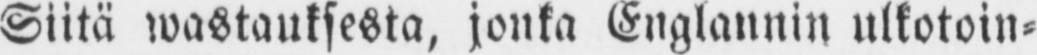Siitä wastauksesta, jonka Englannin ulkotoin-
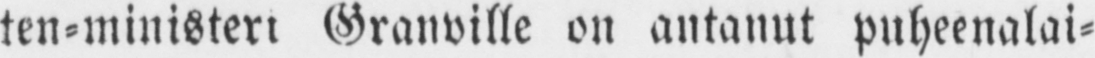ten-ministeri Granville on antanut puheenalai-
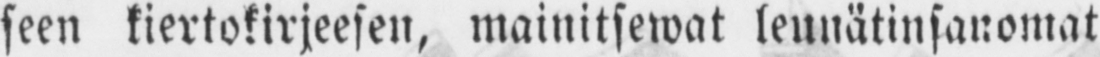seen kiertokirjeesen, mainitsewat lennätinsanomat
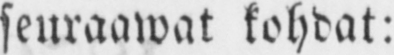seuraawat kohdat:
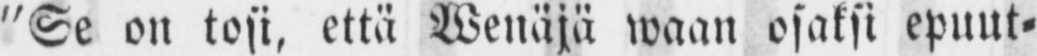"Se on tosi, että Wenäjä waan osaksi epuut-
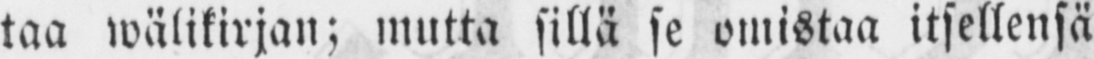taa wälikirjan; mutta sillä se omistaa itsellensä
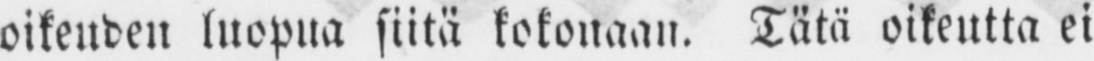oikeuden luopua siitä kokonaan. Tätä oikeutta ei
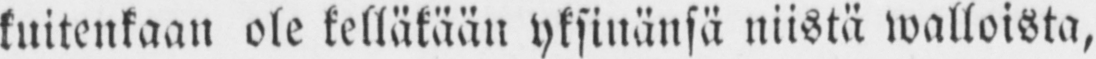kuitenkaan ole kelläkään yksinänsä niistä walloista,
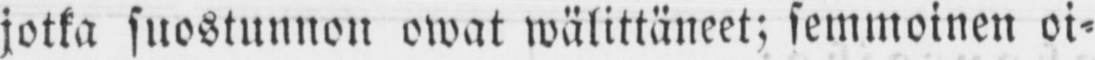jotka suostunnon owat wälittäneet; semmoinen oi-
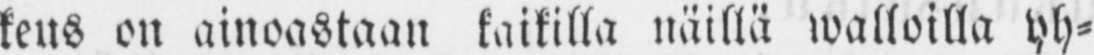keus on ainoastaan kaikilla näillä walloilla yh-
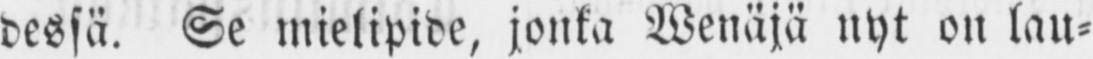dessä. Se mielipide, jonka Wenäjä nyt on lau-
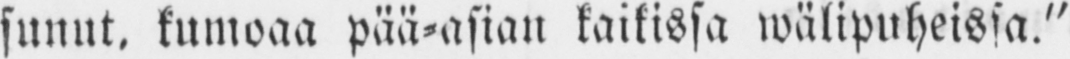sunut, kumoaa pää-asian kaikissa wälipuheissa."
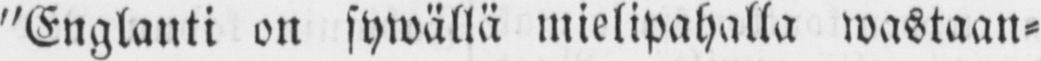"Englanti on sywällä mielipahalla wastaan-
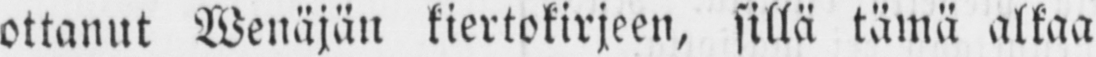ottanut Wenäjän kiertokirjeen, sillä tämä alkaa
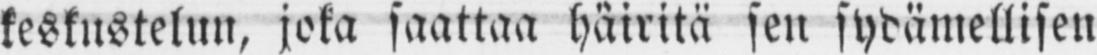keskustelun, joka saattaa häiritä sen sydämellisen
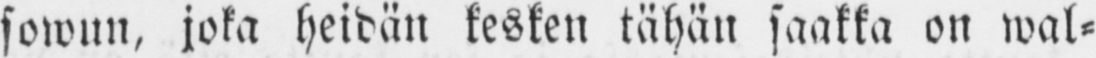sowun, joka heidän kesken tähän saakka on wal-
